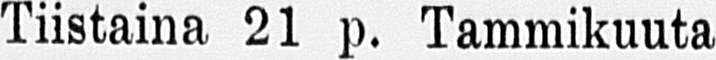Tiistaina 21 p. Tammikuuta
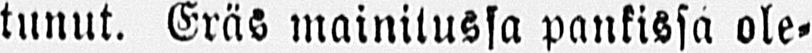tullut. Eräs mainitussa pankissa ole-
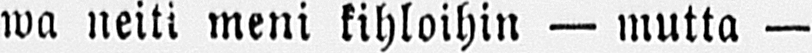wa neiti meni kihloihin — mutta —
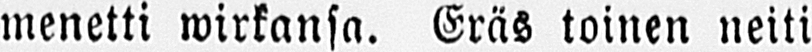menetti wirkansa. Eräs toinen neiti
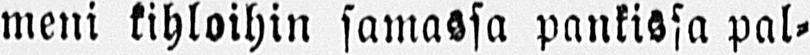meni kihloihin samassa pankissa pal-
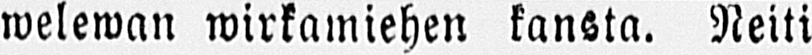welewan wirkamiehen kansta. Neiti
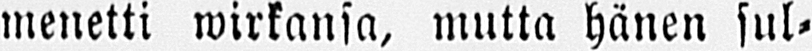menetti wirkansa, mutta hänen sul-
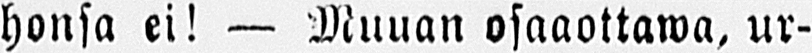honsa ei! — Muuan osaaottawa, ur-
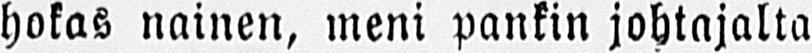hokas nainen, meni pankin johtajalta
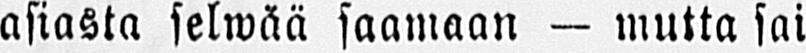asiasta selwää saamaan — mutta sai
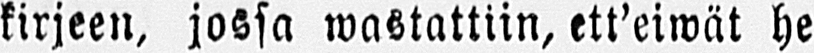kirjeen, jossa wastattiin, ett’eiwät he
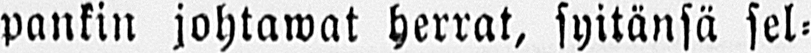pankin johtawat herrat, syitänsä sel-
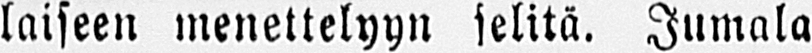laiseen menettelyyn selitä. Jumala
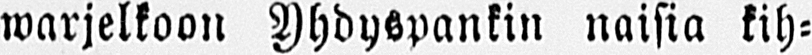warjelkoon Yhdyspankin naisia kih-
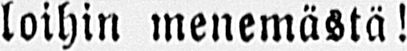loihin menemästä!
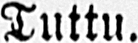Tuttu.
